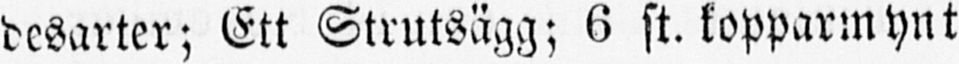desarter; Ett Strutsägg; 6 st. kopparmynt
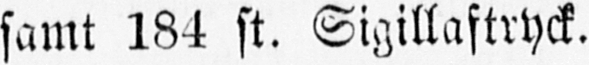samt 184 st. Sigillaftryck.
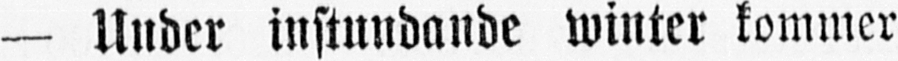— Uuder instundande winter kommer
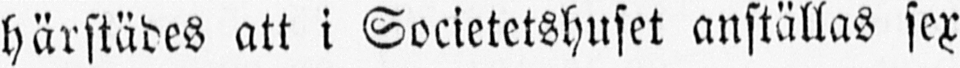härstädes att i Societetshuset anställas sex
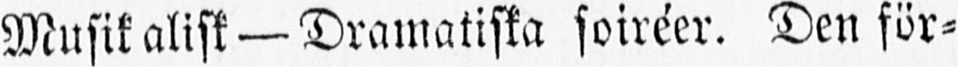Musikalisk —Dramatiska soiréer. Den för-
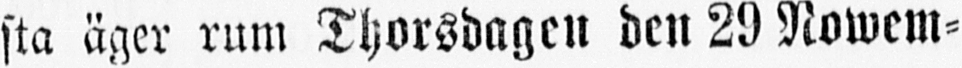sta äger rum Thorsdagen den 29 Nowem-
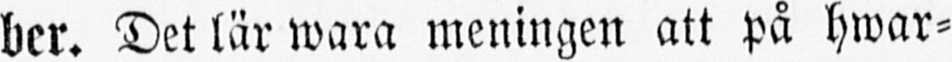ber. Det lär wara meningen att på hwar-
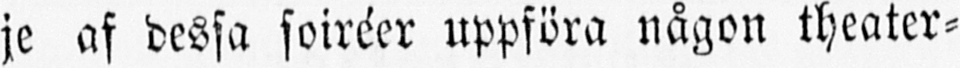je af dessa soiréer uppföra någon theater-
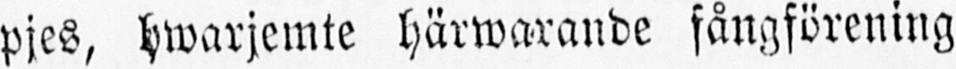pjes, hwarjemte härwarande sångförening
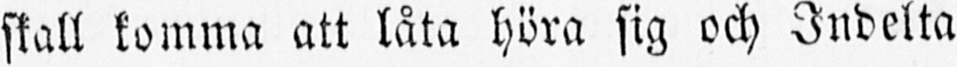skall komma att låta höra sig och Indelta
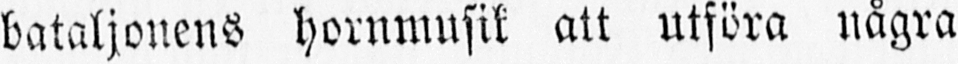bataljonens hornmusik att utföra några
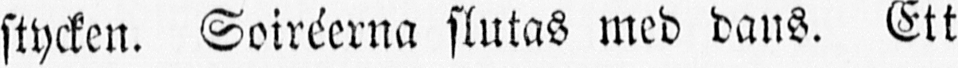stycken. Soiréerna slutas med dans. Ett
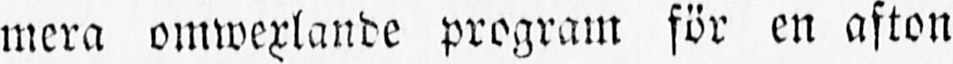mera omwexlande program för en afton
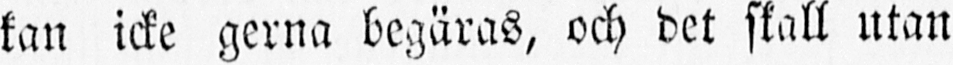kan icke gerna begäras, och det skall utan
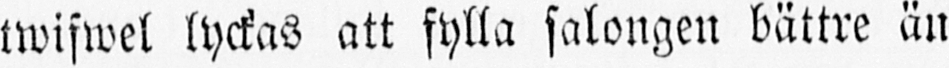twifwel lyckas att fylla salongen bättre än
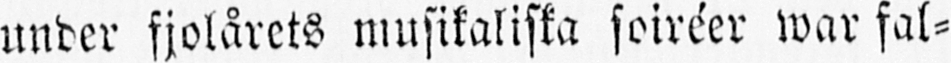under fjolårets musikaliska soiréer war fal-
